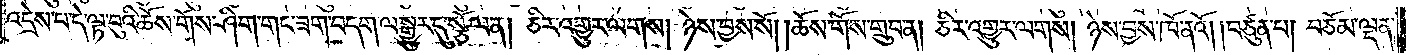འདྲེས་པ་དེ་ལྟ་བུའི་ཆོས་གོས་ཤིག་གང་ཟག་བདག་ལ་སྒྱུར་དུ་སྩོལ་ན། ཅིར་འགྱུར་ལགས། ཉེས་བྱས་སོ། །ཆོས་གོས་གྲུབ་ན། ཅིར་འགྱུར་ལགས། ཉེས་བྱས་ཁོ་ནའོ། །བཙུན་པ། བཅོམ་ལྡན་
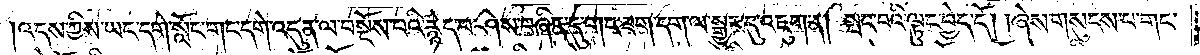།འདས་ཀྱིས་ཡང་དགེ་སློང་གང་དགེ་འདུན་ལ་བསྔོས་པའི་རྙེད་པ་ཤེས་བཞིན་དུ་གང་ཟག་དག་ལ་སྒྱུར་དུ་འཇུག་ན། སྤང་བའི་ལྟུང་བྱེད་དོ། །ཞེས་གསུངས་པ་གང་
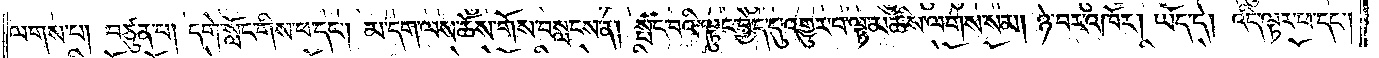ལགས་པ། བཙུན་པ། དགེ་སློང་གིས་ཕ་དང༌། མ་དག་ལས་ཆོས་གོས་བསླངས་ན། སྤང་བའི་ལྟུང་བྱེད་དུ་འགྱུར་བ་ལྟ་མཆིས་ལགས་སམ། ཉེ་བར་འཁོར། ཡོད་དེ། འདི་ལྟར་ཕ་དང༌།
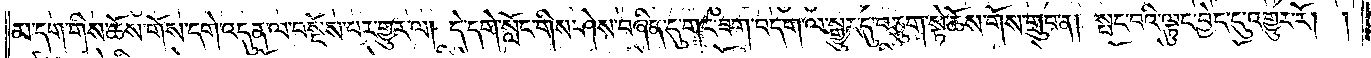མ་དག་གིས་ཆོས་གོས་དགེ་འདུན་ལ་བསྔོས་པར་གྱུར་ལ། དེ་དགེ་སློང་གིས་ཤེས་བཞིན་དུ་གང་ཟག་བདག་ལ་སྒྱུར་དུ་བཅུག་སྟེ་ཆོས་གོས་གྲུབ་ན། སྤང་བའི་ལྟུང་བྱེད་དུ་འགྱུར་རོ། །
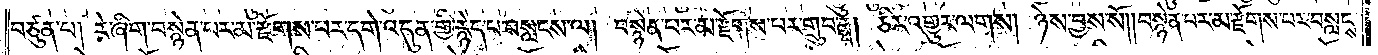བཙུན་པ། རེ་ཞིག་བསྙེན་པར་མ་རྫོགས་པར་དགེ་འདུན་གྱི་རྙེད་པ་བསླངས་ལ། བསྙེན་པར་མ་རྫོགས་པར་གྲུབ་ན། ཅིར་འགྱུར་ལགས། ཉེས་བྱས་སོ། །བསྙེན་པར་མ་རྫོགས་པར་བསླངས་
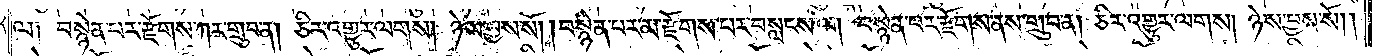ལ༑ བསྙེན་པར་རྫོགས་ཀར་གྲུབ་ན། ཅིར་འགྱུར་ལགས། ཉེས་བྱས་སོ། །བསྙེན་པར་མ་རྫོགས་པར་བསླངས་ལ། བསྙེན་པར་རྫོགས་ནས་གྲུབ་ན། ཅིར་འགྱུར་ལགས། ཉེས་བྱས་སོ། །
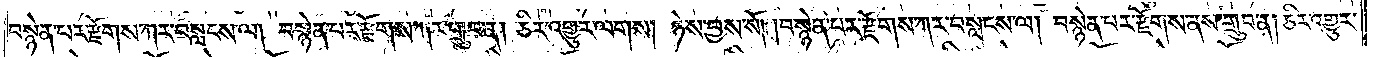བསྙེན་པར་རྫོགས་ཀར་བསླངས་ལ། བསྙེན་པར་རྫོགས་ཀར་གྲུབ་ན། ཅིར་འགྱུར་ལགས། ཉེས་བྱས་སོ། །བསྙེན་པར་རྫོགས་ཀར་བསླངས་ལ། བསྙེན་པར་རྫོགས་ནས་གྲུབ་ན། ཅིར་འགྱུར་
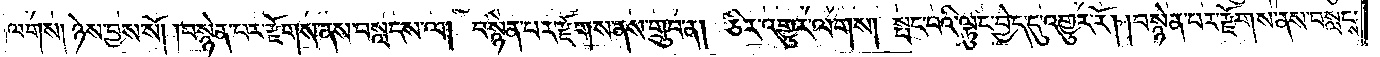ལགས། ཉེས་བྱས་སོ། །བསྙེན་པར་རྫོགས་ནས་བསླངས་ལ། བསྙེན་པར་རྫོགས་ནས་གྲུབ་ན། ཅིར་འགྱུར་ལགས། སྤང་བའི་ལྟུང་བྱེད་དུ་འགྱུར་རོ། །བསྙེན་པར་རྫོགས་ནས་བསླངས་
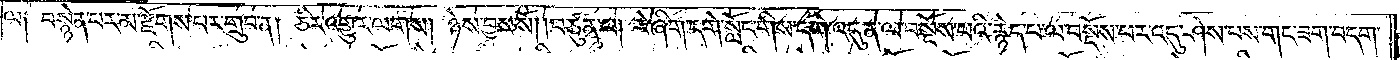ལ༑ བསྙེན་པར་མ་རྫོགས་པར་གྲུབ་ན། ཅིར་འགྱུར་ལགས། ཉེས་བྱས་སོ། །བཙུན་པ། རེ་ཞིག་དགེ་སློང་གིས་དགེ་འདུན་ལ་བསྔོས་པའི་རྙེད་པ་ལ་བསྔོས་པར་འདུ་ཤེས་པས་གང་ཟག་བདག་
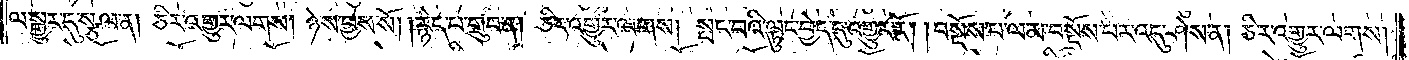ལ་སྒྱུར་དུ་སྩལ་ན། ཅིར་འགྱུར་ལགས། ཉེས་བྱས་སོ། །རྙེད་པ་གྲུབ་ན། ཅིར་འགྱུར་ལགས། སྤང་བའི་ལྟུང་བྱེད་དུ་འགྱུར་རོ། །བསྔོས་པ་ལམ་བསྔོས་པར་འདུ་ཤེས་ན། ཅིར་འགྱུར་ལགས།
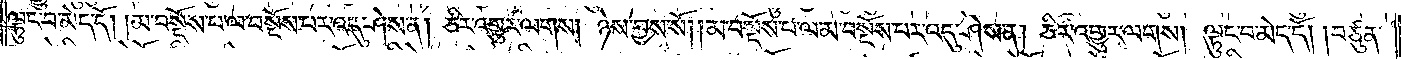ལྟུང་བ་མེད་དོ། །མ་བསྔོས་པ་ལ་བསྔོས་པར་འདུ་ཤེས་ན། ཅིར་འགྱུར་ལགས། ཉེས་བྱས་སོ། །མ་བསྔོས་པ་ལ་མ་བསྔོས་པར་འདུ་ཤེས་ན། ཅིར་འགྱུར་ལགས། ལྟུང་བ་མེད་དོ། །བཙུན་
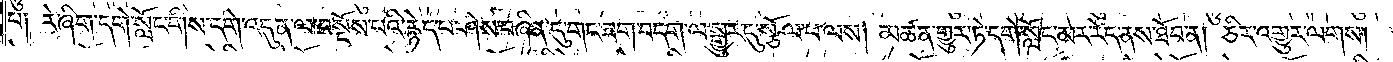པ༑ རེ་ཞིག་དགེ་སློང་གིས་དགེ་འདུན་ལ་བསྔོས་པའི་རྙེད་པ་ཤེས་བཞིན་དུ་གང་ཟག་བདག་ལ་སྒྱུར་དུ་སྩོལ་པ་ལས། མཚན་གྱུར་ཏེ་དགེ་སློང་མར་རེད་ནས་ཐོབ་ན། ཅིར་འགྱུར་ལགས།
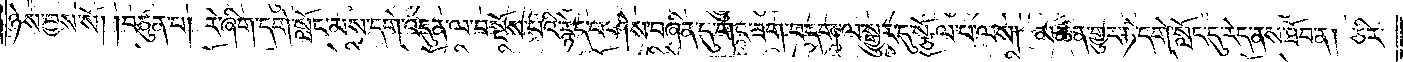ཉེས་བྱས་སོ། །བཙུན་པ། རེ་ཞིག་དགེ་སློང་མས་དགེ་འདུན་ལ་བསྔོས་པའི་རྙེད་པ་ཤེས་བཞིན་དུ་གང་ཟག་བདག་ལ་སྒྱུར་དུ་སྩོལ་པ་ལས། མཚན་གྱུར་ཏེ་དགེ་སློང་དུ་རེད་ནས་ཐོབ་ན། ཅིར་
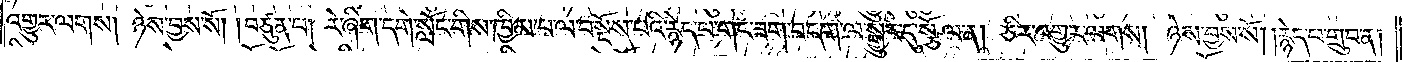འགྱུར་ལགས། ཉེས་བྱས་སོ། །བཙུན་པ། རེ་ཞིག་དགེ་སློང་གིས་ཁྱིམ་པ་ལ་བསྔོས་པའི་རྙེད་པ་གང་ཟག་བདག་ལ་སྒྱུར་དུ་སྩོལ་ན། ཅིར་འགྱུར་ལགས། ཉེས་བྱས་སོ། །རྙེད་པ་གྲུབ་ན།
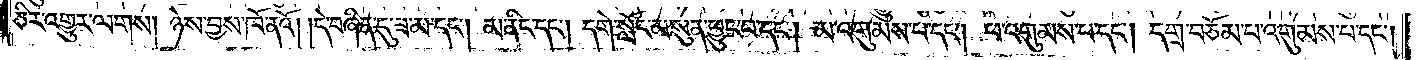ཅིར་འགྱུར་ལགས། ཉེས་བྱས་ཁོ་ནའོ། །དེ་བཞིན་དུ་ཟ་མ་དང༌། མ་ནིང་དང༌། དགེ་སློང་མ་སུན་ཕྱུང་བ་དང༌། མ་འགུམས་པ་དང༌། ཕ་འགུམས་པ་དང༌། དགྲ་བཅོམ་པ་འགུམས་པ་དང༌།
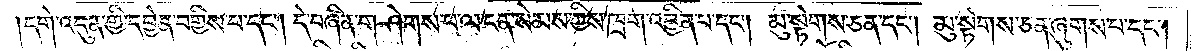།དགེ་འདུན་གྱི་དབྱེན་བགྱིས་པ་དང༌། དེ་བཞིན་གཤེགས་པ་ལ་ངན་སེམས་ཀྱིས་ཁྲག་འབྱིན་པ་དང༌། མུ་སྟེགས་ཅན་དང༌། མུ་སྟེགས་ཅན་ཞུགས་པ་དང༌།
